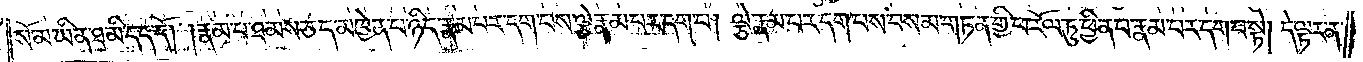སོ་མ་ཡིན་ཐ་མི་དད་དོ། །རྣམ་པ་ཐམས་ཅད་མཁྱེན་པ་ཉིད་རྣམ་པར་དག་པས་ལྕེ་རྣམ་པར་དག་པ། ལྕེ་རྣམ་པར་དག་པས་བསམ་གཏན་གྱི་ཕ་རོལ་ཏུ་ཕྱིན་པ་རྣམ་པར་དག་པ་སྟེ། དེ་ལྟར་ན་
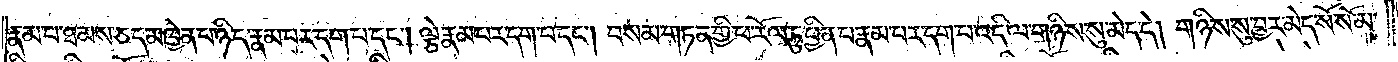རྣམ་པ་ཐམས་ཅད་མཁྱེན་པ་ཉིད་རྣམ་པར་དག་པ་དང༌། ལྕེ་རྣམ་པར་དག་པ་དང༌། བསམ་གཏན་གྱི་ཕ་རོལ་ཏུ་ཕྱིན་པ་རྣམ་པར་དག་པ་འདི་ལ་གཉིས་སུ་མེད་དེ། གཉིས་སུ་བྱར་མེད་སོ་སོ་མ་
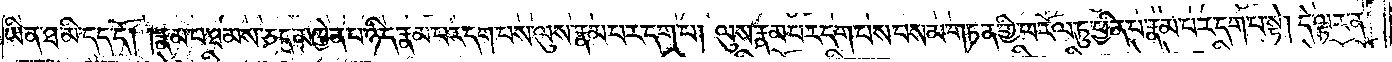ཡིན་ཐ་མི་དད་དོ། །རྣམ་པར་ཐམས་ཅད་མཁྱེན་པ་ཉིད་རྣམ་པར་དག་པས་ལུས་རྣམ་པར་དག་པ། ལུས་རྣམ་པར་དག་པས་བསམ་གཏན་གྱི་ཕ་རོལ་ཏུ་ཕྱིན་པ་རྣམ་པར་དག་པ་སྟེ། དེ་ལྟར་ན་
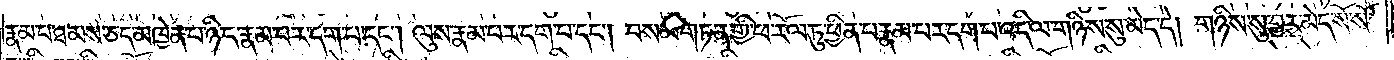རྣམ་པར་ཐམས་ཅད་མཁྱེན་པ་ཉིད་རྣམ་པར་དག་པ་དང༌། ལུས་རྣམ་པར་དག་པ་དང༌། བསམ་གཏན་གྱི་ཕ་རོལ་ཏུ་ཕྱིན་པ་རྣམ་པར་དག་པ་འདི་ལ་གཉིས་སུ་མེད་དེ། གཉིས་སུ་བྱར་མེད་སོ་སོ་
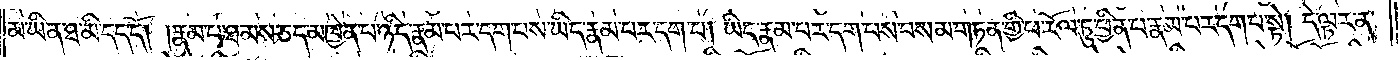མ་ཡིན་ཐ་མི་དད་དོ། །རྣམ་པ་ཐམས་ཅད་མཁྱེན་པ་ཉིད་རྣམ་པར་དག་པས་ཡིད་རྣམ་པར་དག་པ། ཡིད་རྣམ་པར་དག་པས་བསམ་གཏན་གྱི་ཕ་རོལ་ཏུ་ཕྱིན་པ་རྣམ་པར་དག་པ་སྟེ། དེ་ལྟར་ན་
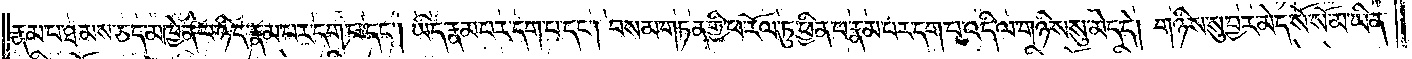རྣམ་པ་ཐམས་ཅད་མཁྱེན་པ་ཉིད་རྣམ་པར་དག་པ་དང༌། ཡིད་རྣམ་པར་དག་པ་དང༌། བསམ་གཏན་གྱི་ཕ་རོལ་ཏུ་ཕྱིན་པ་རྣམ་པར་དག་པ་འདི་ལ་གཉིས་སུ་མེད་དེ། གཉིས་སུ་བྱར་མེད་སོ་སོ་མ་ཡིན་
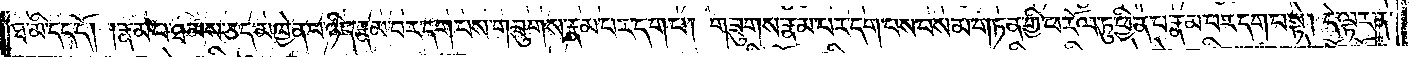ཐ་མི་དད་དོ། །རྣམ་པ་ཐམས་ཅད་མཁྱེན་པ་ཉིད་རྣམ་པར་དག་པས་གཟུགས་རྣམ་པར་དག་པ། གཟུགས་རྣམ་པར་དག་པས་བསམ་གཏན་གྱི་ཕ་རོལ་ཏུ་ཕྱིན་པ་རྣམ་པར་དག་པ་སྟེ། དེ་ལྟར་ན་
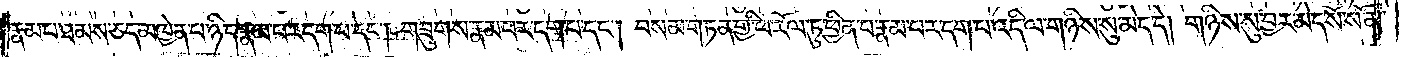རྣམ་པ་ཐམས་ཅད་མཁྱེན་པ་ཉིད་རྣམ་པར་དག་པ་དང༌། གཟུགས་རྣམ་པར་དག་པ་དང༌། བསམ་གཏན་གྱི་ཕ་རོལ་ཏུ་ཕྱིན་པ་རྣམ་པར་དག་པ་འདི་ལ་གཉིས་སུ་མེད་དེ། གཉིས་སུ་བྱར་མེད་སོ་སོ་མ་
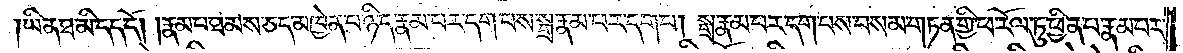ཡིན་ཐ་མི་དད་དོ། །རྣམ་པ་ཐམས་ཅད་མཁྱེན་པ་ཉིད་རྣམ་པར་དག་པས་སྒྲ་རྣམ་པར་དག་པ། སྒྲ་རྣམ་པར་དག་པས་བསམ་གཏན་གྱི་ཕ་རོལ་ཏུ་ཕྱིན་པ་རྣམ་པར་
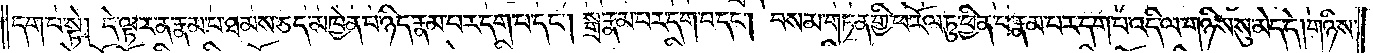དག་པ་སྟེ། དེ་ལྟར་ན་རྣམ་པ་ཐམས་ཅད་མཁྱེན་པ་ཉིད་རྣམ་པར་དག་པ་དང༌། སྒྲ་རྣམ་པར་དག་པ་དང༌། བསམ་གཏན་གྱི་ཕ་རོལ་ཏུ་ཕྱིན་པ་རྣམ་པར་དག་པ་འདི་ལ་གཉིས་སུ་མེད་དེ། གཉིས་
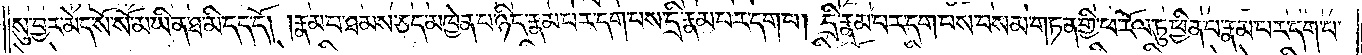སུ་བྱར་མེད་སོ་སོ་མ་ཡིན་ཐ་མི་དད་དོ། །རྣམ་པ་ཐམས་ཅད་མཁྱེན་པ་ཉིད་རྣམ་པར་དག་པས་དྲི་རྣམ་པར་དག་པ། དྲི་རྣམ་པར་དག་པས་བསམ་གཏན་གྱི་ཕ་རོལ་ཏུ་ཕྱིན་པ་རྣམ་པར་དག་པ་
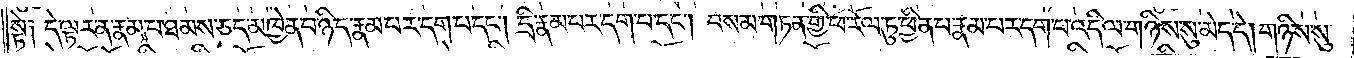སྟེ༑ དེ་ལྟར་ན་རྣམ་པ་ཐམས་ཅད་མཁྱེན་པ་ཉིད་རྣམ་པར་དག་པ་དང༌། དྲི་རྣམ་པར་དག་པ་དང༌། བསམ་གཏན་གྱི་ཕ་རོལ་ཏུ་ཕྱིན་པ་རྣམ་པར་དག་པ་འདི་ལ་གཉིས་སུ་མེད་དེ། གཉིས་སུ་
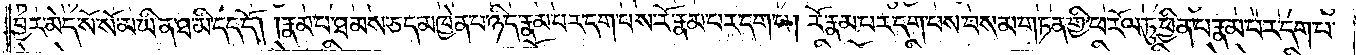བྱར་མེད་སོ་སོ་མ་ཡིན་ཐ་མི་དད་དོ། །རྣམ་པ་ཐམས་ཅད་མཁྱེན་པ་ཉིད་རྣམ་པར་དག་པས་རོ་རྣམ་པར་དག་པ། རོ་རྣམ་པར་དག་པས་བསམ་གཏན་གྱི་ཕ་རོལ་ཏུ་ཕྱིན་པ་རྣམ་པར་དག་པ་
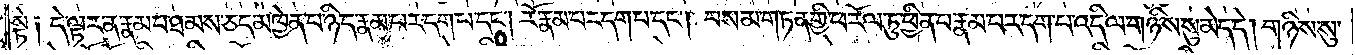སྟེ༑ དེ་ལྟར་ན་རྣམ་པ་ཐམས་ཅད་མཁྱེན་པ་ཉིད་རྣམ་པར་དག་པ་དང༌། རོ་རྣམ་པར་དག་པ་དང༌། བསམ་གཏན་གྱི་ཕ་རོལ་ཏུ་ཕྱིན་པ་རྣམ་པར་དག་པ་འདི་ལ་གཉིས་སུ་མེད་དེ། གཉིས་སུ་
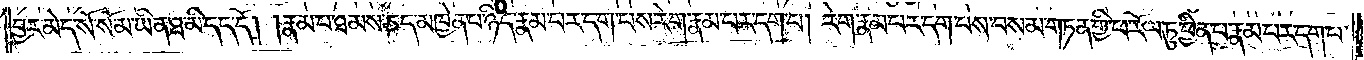བྱར་མེད་སོ་སོ་མ་ཡིན་ཐ་མི་དད་དོ། །རྣམ་པ་ཐམས་ཅད་མཁྱེན་པ་ཉིད་རྣམ་པར་དག་པས་རེག་རྣམ་པར་དག་པ། རེག་རྣམ་པར་དག་པས་བསམ་གཏན་གྱི་ཕ་རོལ་ཏུ་ཕྱིན་པ་རྣམ་པར་དག་པ་
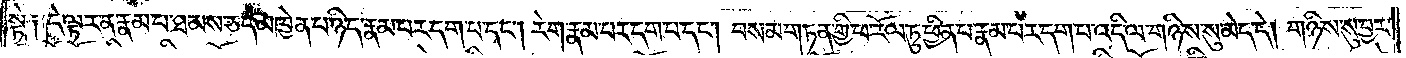སྟེ༑ དེ་ལྟར་ན་རྣམ་པ་ཐམས་ཅད་མཁྱེན་པ་ཉིད་རྣམ་པར་དག་པ་དང༌། རེག་རྣམ་པར་དག་པ་དང༌། བསམ་གཏན་གྱི་ཕ་རོལ་ཏུ་ཕྱིན་པ་རྣམ་པར་དག་པ་འདི་ལ་གཉིས་སུ་མེད་དེ། གཉིས་སུ་བྱར་
